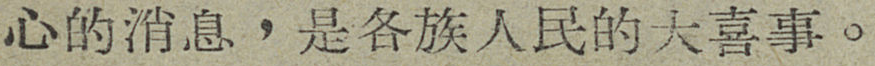心的消息，是各族人民的大喜事。
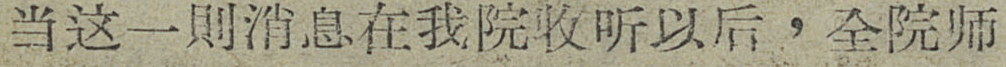当这一則消息在我院收听以后，全员师
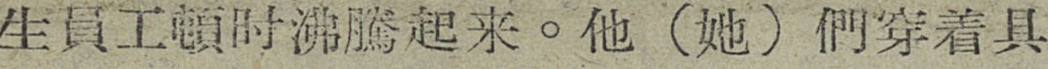生員工頓沸騰起来。他（她）們穿着具
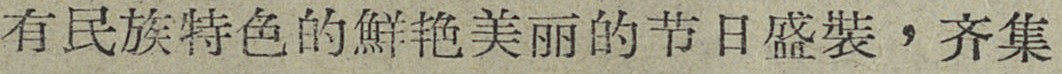有民族特色的鮮艳美丽的节日盛裝，齐集
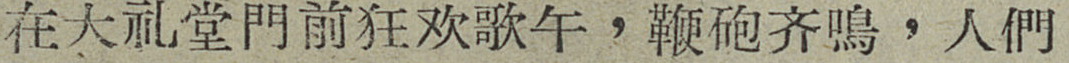在大礼堂門前狂欢歌午，鞭砲齐鳴，人們
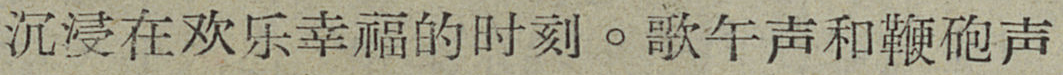沉浸在欢乐幸福的时刻。歌午声和鞭砲声
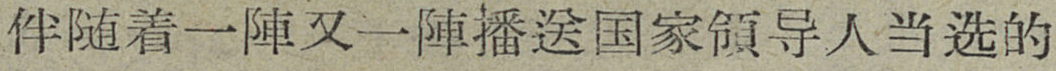伴随着一陣又一陣播送国家領导人当选的
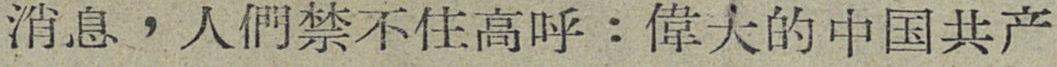消息，人們禁不住高呼：偉大的中国共产
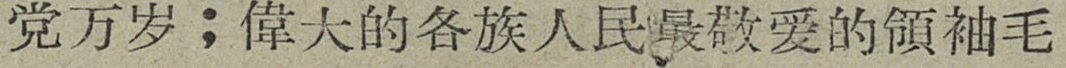党万岁；偉大的各族人民最敬爱的領袖毛
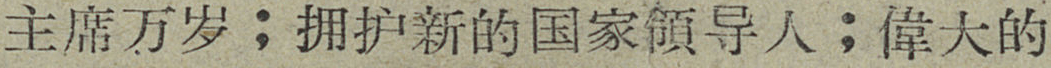主席万岁；拥护新的国家領导人；偉大的
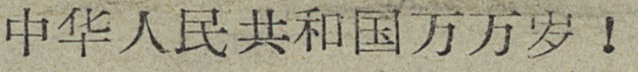中华人民共和国万万岁！
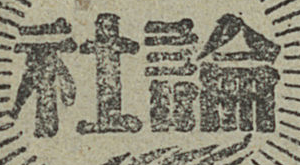社論
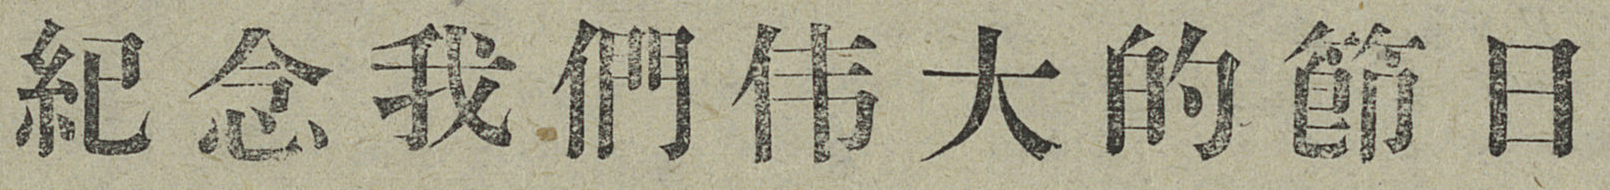紀念我們伟大的節日
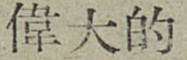偉大的
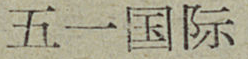五一国际
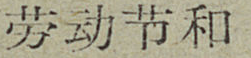劳动节和
